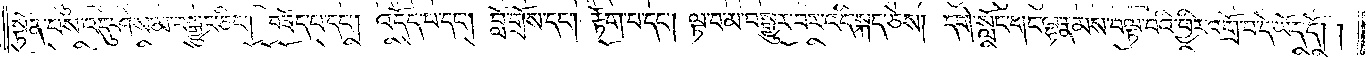སྟོན་པས་འདུ་ཤེས་མ་བསྒྱུར་ཅིང༌། བཟོད་པ་དང༌། འདོད་པ་དང༌། བློ་གྲོས་དང༌། རྟོག་པ་དང༌། ལྟ་བ་མ་བསྒྱུར་བར་འདི་སྐད་ཅེས། དགེ་སློང་གང་ལྷ་རྣམས་བལྟ་བའི་ཕྱིར་འགྲོ་བ་དེ་ཡོད་དོ། །
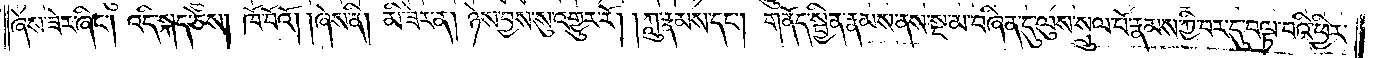ཞེས་ཟེར་ཞིང༌། འདི་སྐད་ཅེས། ཁོ་བོའོ། །ཞེས་ནི། མི་ཟེར་ན། ཉེས་བྱས་སུ་འགྱུར་རོ། །ཀླུ་རྣམས་དང༌། གནོད་སྦྱིན་རྣམས་ནས་སྔ་མ་བཞིན་དུ་ལུས་སྲུལ་པོ་རྣམས་ཀྱི་བར་དུ་བལྟ་བའི་ཕྱིར་
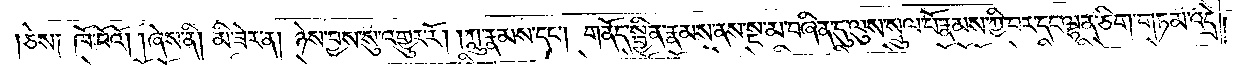ཅེས། ཁོ་བོའོ། །ཞེས་ནི། མི་ཟེར་ན། ཉེས་བྱས་སུ་འགྱུར་རོ། །ཀླུ་རྣམས་དང༌། གནོད་སྦྱིན་རྣམས་ནས་སྔ་མ་བཞིན་དུ་ལུས་སྲུལ་པོ་རྣམས་ཀྱི་བར་དང་ལྷན་ཅིག་གཏམ་འདྲེ་
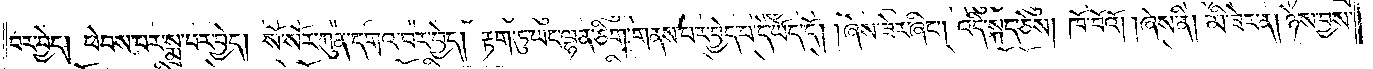བར་བྱེད། ཕེབས་པར་སྨྲ་བར་བྱེད། སོ་སོར་ཀུན་དགའ་བར་བྱེད། རྟག་ཏུ་ཡང་ལྷན་ཅིག་གནས་པར་བྱེད་པ་དེ་ཡོད་དོ། །ཞེས་ཟེར་ཞིང༌། འདི་སྐད་ཅེས། ཁོ་བོའོ། །ཞེས་ནི། མི་ཟེར་ན། ཉེས་བྱས་
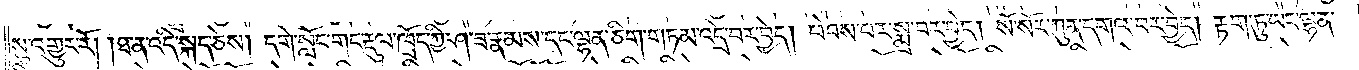སུ་འགྱུར་རོ། །ཐ་ན་འདི་སྐད་ཅེས། དགེ་སློང་གང་རྡུལ་ཁྲོད་ཀྱི་ཤ་ཟ་རྣམས་དང་ལྷན་ཅིག་གཏམ་འདྲེ་བར་བྱེད། ཕེབས་པར་སྨྲ་བར་བྱེད། སོ་སོར་ཀུན་དགའ་བར་བྱེད། རྟག་ཏུ་ཡང་ལྷན་
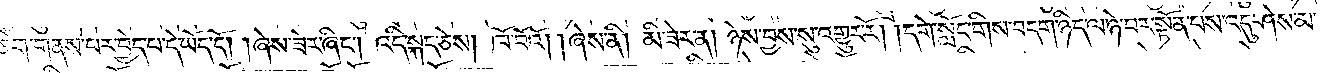ཅིག་གནས་པར་བྱེད་པ་དེ་ཡོད་དོ། །ཞེས་ཟེར་ཞིང༌། འདི་སྐད་ཅེས། ཁོ་བོའོ། །ཞེས་ནི། མི་ཟེར་ན། ཉེས་བྱས་སུ་འགྱུར་རོ། །དགེ་སློང་གིས་བདག་ཉིད་ལ་ཉེ་བར་སྟོན་པས་འདུ་ཤེས་མ་
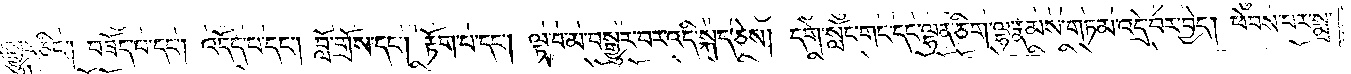བསྒྱུར་ཅིང༌། བཟོད་པ་དང༌། འདོད་པ་དང༌། བློ་གྲོས་དང༌། རྟོག་པ་དང༌། ལྟ་བ་མ་བསྒྱུར་བར་འདི་སྐད་ཅེས། དགེ་སློང་གང་དང་ལྷན་ཅིག་ལྷ་རྣམས་གཏམ་འདྲེ་བར་བྱེད། ཕེབས་པར་སྨྲ་
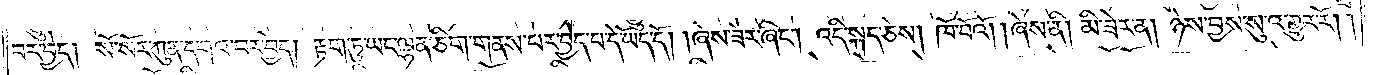བར་བྱེད། སོ་སོར་ཀུན་དགའ་བར་བྱེད། རྟག་ཏུ་ཡང་ལྷན་ཅིག་གནས་པར་བྱེད་པ་དེ་ཡོད་དོ། །ཞེས་ཟེར་ཞིང༌། འདི་སྐད་ཅེས། ཁོ་བོའོ། །ཞེས་ནི། མི་ཟེར་ན། ཉེས་བྱས་སུ་འགྱུར་རོ། །
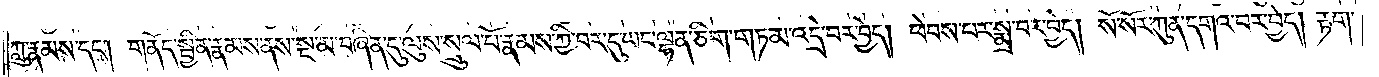ཀླུ་རྣམས་དང༌། གནོད་སྦྱིན་རྣམས་ནས་སྔ་མ་བཞིན་དུ་ལུས་སྲུལ་པོ་རྣམས་ཀྱི་བར་དུ་ཡང་ལྷན་ཅིག་གཏམ་འདྲེ་བར་བྱེད། ཕེབས་པར་སྨྲ་བར་བྱེད། སོ་སོར་ཀུན་དགའ་བར་བྱེད། རྟག་
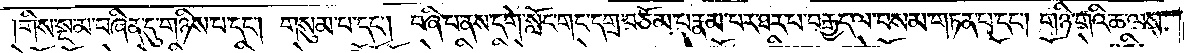གིས་སྔ་མ་བཞིན་དུ་གཉིས་པ་དང༌། གསུམ་པ་དང༌། བཞི་པ་ནས་དགེ་སློང་གང་དགྲ་བཅོམ་པ་རྣམ་པར་ཐར་པ་བརྒྱད་ལ་བསམ་གཏན་པ་དང༌། གཉི་གའི་ཆ་ལས་
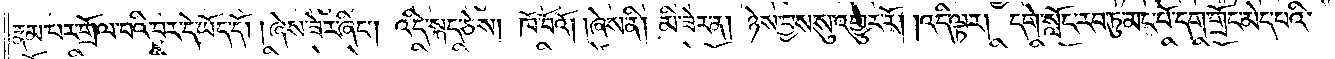རྣམ་པར་གྲོལ་བའི་བར་དེ་ཡོད་དོ། །ཞེས་ཟེར་ཞིང༌། འདི་སྐད་ཅེས། ཁོ་བོའོ། །ཞེས་ནི། མི་ཟེར་ན། ཉེས་བྱས་སུ་འགྱུར་རོ། །འདི་ལྟར། དགེ་སློང་རབ་ཏུ་མང་པོ་དག་གྲོང་མེད་པའི་
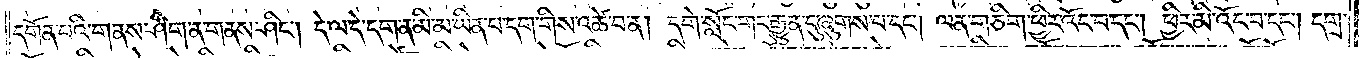དགོན་པའི་གནས་ཤིག་ན་གནས་ཤིང༌། དེ་ལ་དེ་དག་ན་མི་མ་ཡིན་པ་དག་གིས་འཚེ་བ་ན། དགེ་སློང་གང་རྒྱུན་དུ་ཞུགས་པ་དང༌། ལན་གཅིག་ཕྱིར་འོང་བ་དང༌། ཕྱིར་མི་འོང་བ་དང༌། དགྲ་
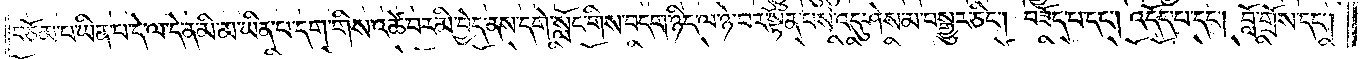བཅོམ་པ་ཡིན་པ་དེ་ལ་དེ་ན་མི་མ་ཡིན་པ་དག་གིས་འཚེ་བར་མི་བྱེད་ནས་དགེ་སློང་གིས་བདག་ཉིད་ལ་ཉེ་བར་སྟོན་པས་འདུ་ཤེས་མ་བསྒྱུར་ཅིང༌། བཟོད་པ་དང༌། འདོད་པ་དང༌། བློ་གྲོས་དང༌།
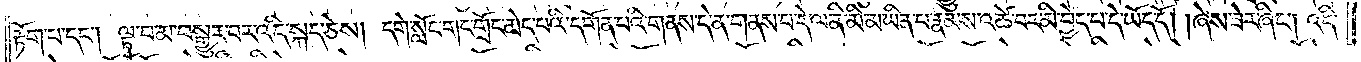རྟོག་པ་དང༌། ལྟ་བ་མ་བསྒྱུར་བར་འདི་སྐད་ཅེས། དགེ་སློང་གང་གྲོང་མེད་པའི་དགོན་པའི་གནས་དེ་ན་གནས་པ་དེ་ལ་ནི་མི་མ་ཡིན་པ་རྣམས་འཚེ་བར་མི་བྱེད་པ་དེ་ཡོད་དོ། །ཞེས་ཟེར་ཞིང༌། འདི་
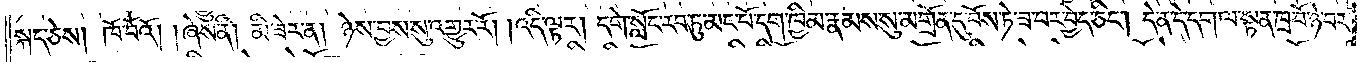སྐད་ཅེས། ཁོ་བོའོ། །ཞེས་ནི། མི་ཟེར་ན། ཉེས་བྱས་སུ་འགྱུར་རོ། །འདི་ལྟར། དགེ་སློང་རབ་ཏུ་མང་པོ་དག་ཁྱིམ་རྣམས་སུ་མགྲོན་དུ་བོས་ཏེ་ཟ་བར་བྱེད་ཅིང༌། དེ་ན་དེ་དག་ལ་སྟན་ཁྲ་བོ་ཉེ་བར་
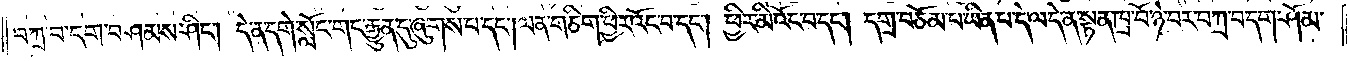བཀྲ་བ་དག་བཤམས་ཤིང༌། དེ་ན་དགེ་སློང་གང་རྒྱུན་དུ་ཞུགས་པ་དང༌། ལན་གཅིག་ཕྱིར་འོང་བ་དང༌། ཕྱིར་མི་འོང་བ་དང༌། དགྲ་བཅོམ་པ་ཡིན་པ་དེ་ལ་དེ་ན་སྟན་ཁྲ་བོ་ཉེ་བར་བཀྲ་བ་དག་ཤོམ་
